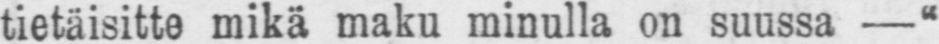tietäisitte mikä maku minulla on suussa —"
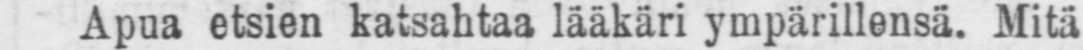Apua etsien katsahtaa lääkäri ympärillensä. Mitä
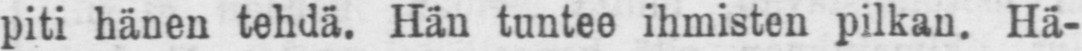piti hänen tehdä. Hän tuntee ihmisten pilkan. Hä-
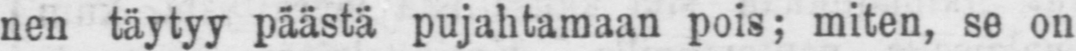nen täytyy päästä pujahtamaan pois; miten, se on
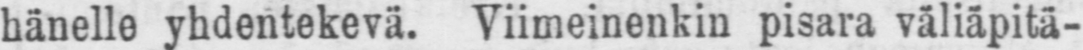hänelle Viimeinenkin pisara väliäpitä-
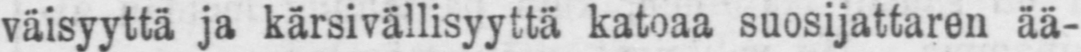väisyyttä ja kärsivällisyyttä katoaa suosijattaren ää-
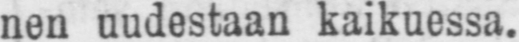nen uudestaan kaikuessa.
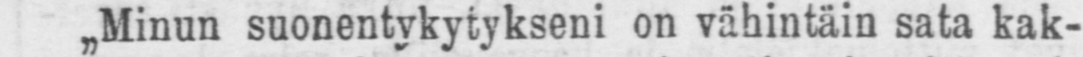˶Minun suonentykytykseni on vähintäin sata kak-
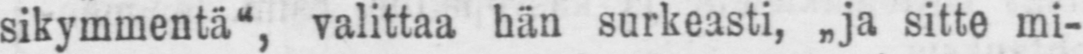sikymmentä", valittaa hän surkeasti, ˶ja sitte mi-
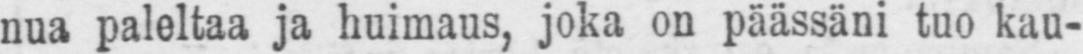nua paleltaa ja huimaus, joka on päässäni tuo kau-
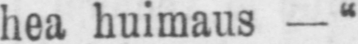hea huimaus — "
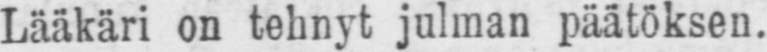Lääkäri on tehnyt julman päätöksen.
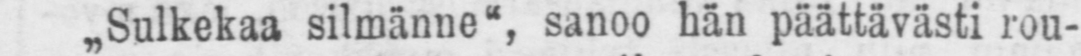˶Sulkekaa silmänne", sanoo hän päättävästi rou-
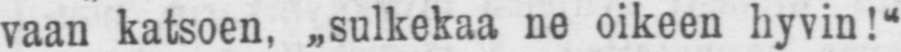vaan katsoen, ˶sulkekaa ne oikeen hyvin!"
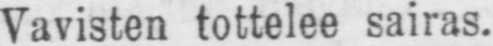Vavisten tottelee sairas.
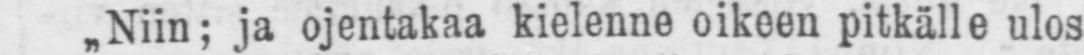˶Niin; ja ojentakaa kielenne oikeen pitkälle ulos
